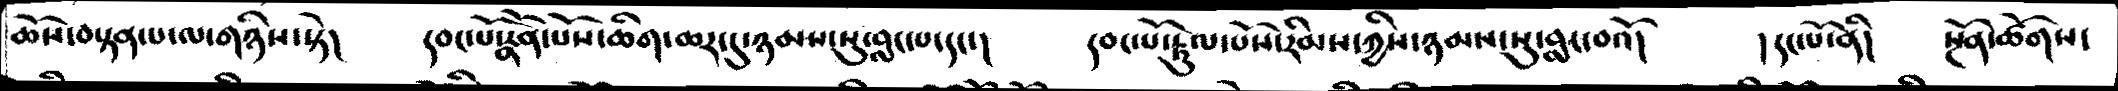ཆོས་བསྟན་པ་ལ་གཉིས་སྟེ།     དབང་པོ་རྣོན་པོས་ཆིག་ཆར་དུ་ཉམས་སུ་བླང་པདང་།     དབང་པོ་རྟུལ་པོས་རིམས་ཀྱིས་ཉམས་སུ་བླང་བའོ།      །དང་པོ་ནི།    སྔོན་ཚོགས་
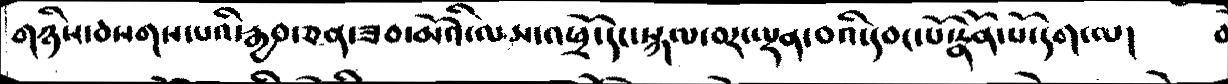གཉིས་བསགས་པའི་རྒྱབ་ཅན་ཟབ་མོའི་ལས་འཕྲོ་དང་སྐལ་བར་ལྡན་བའི་དབང་པོ་རྣོན་པོ་དག་ལ།   བ
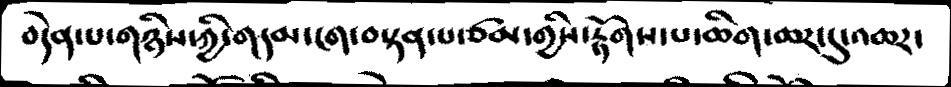བདེན་པ་གཉིས་ཀྱི་གདམ་ངག་བསྟན་པ་ཙམ་གྱིས་རྟོགས་པ་ཆིག་ཆར་དུ་འཆར་
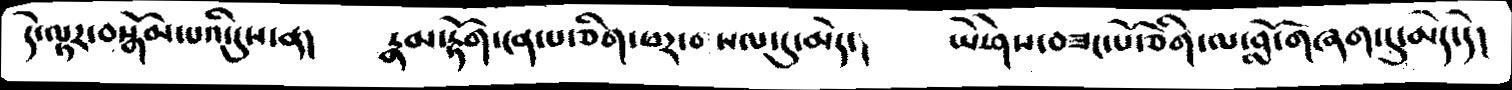དེ་ལྟར་བསྒོམ་པའི་དུས་ན།   རྣམ་རྟོག་ངན་པ་ཅིག་ཕར་བསལ་དུ་མེད་།   ཡེ་ཤེས་བཟང་པོ་ཅིག་ལ་བློ་གཞག་དུ་མེད་དེ།
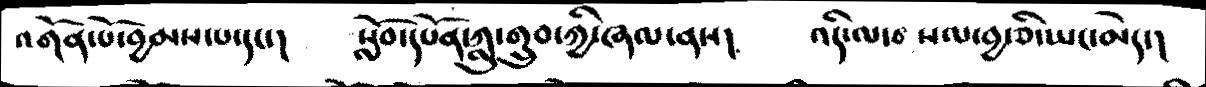འགོན་པོ་བྱམས་པ་དང་།  སློབ་དཔོན་ཀླུ་གྲུབ་ཀྱི་ཞལ་ནས།   འདི་ལ་བསལ་བྱ་ཅི་ཡང་མེད་།
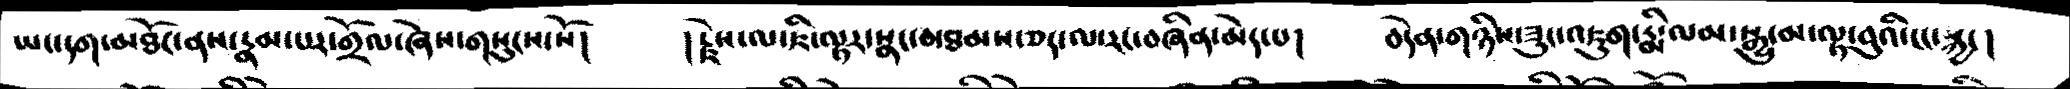ཡང་དག་མཐོང་ནས་རྣམ་པར་གྲོལ་ཞེས་གསུངས་སོ།  །རྗེས་ལ་ཇི་ལྟར་སྣང་བ་ཐམས་ཅད་ལ་རང་བཞིན་མེད་པ།  བདེན་གཉིས་ཟུང་འཇུག་རྨི་ལམ་སྒྱུ་མ་ལྟ་བུའི་ངང་སྐྱ་།
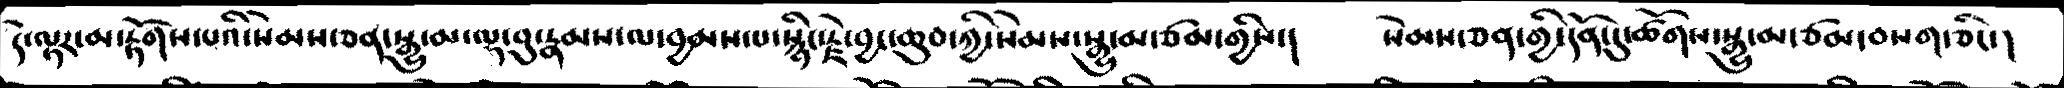དེ་ལྟར་མ་རྟོགས་པའི་སེམས་ཅན་སྒྱུ་མ་ལྟ་བུ་རྣམས་ལ་བྱམས་པ་སྙིང་རྗེ་བྱང་ཆུབ་ཀྱི་སེམས་སྒྱུ་མ་ཙམ་གྱིས་།   སེམས་ཅན་ཀྱི་དོན་དུ་ཚོགས་སྒྱུ་མ་ཙམ་བསག་ཅིང་།
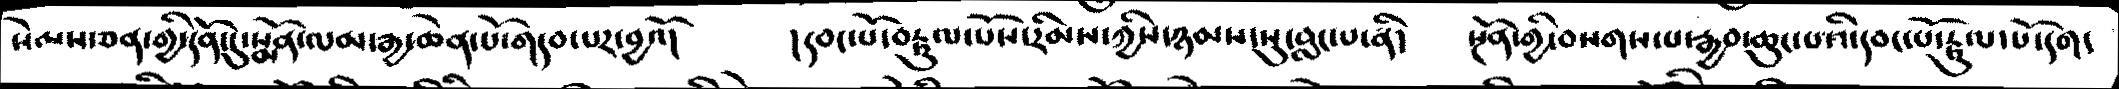སེམས་ཅན་གྱི་དོན་དུ་སྨོན་ལམ་རྒྱ་ཆེན་པོ་གདབ་པར་བྱའོ།  །དབང་པོ་བརྟུལ་པོས་རིམས་ཀྱིས་ཉམས་སུ་བླང་པ་ནི།  སྔོན་གྱི་བསགས་པ་རྒྱབ་ཆུང་པའི་དབང་པོ་རྟུལ་པོ་དག་
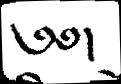༄༅།
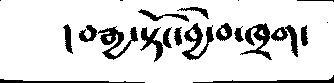།བརྒྱ་སྟོང་བྱེ་བ་ཁྲག་
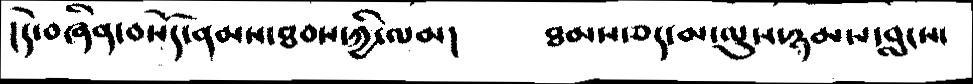།དེ་བཞིན་བསོད་ནམས་ཐབས་ཀྱི་ལམ།      ཐམས་ཅད་མ་ལུས་ཉམས་བླངས་
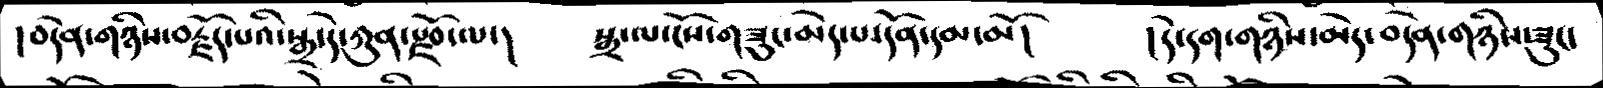།བདེན་གནིས་བརྗོད་པའི་སྒྲ་དེ་ཀུན་རྫོབ་ལ་།  སྒྲ་ལ་ངོས་གཟུང་མེད་པ་དོན་དམ་མོ།   །དེ་དག་གཉིས་མེད་བདེན་གཉིས་ཟུང་
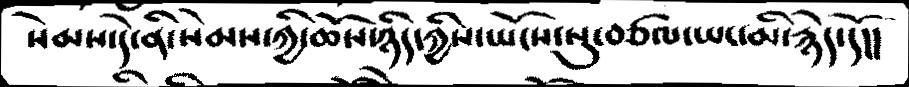སེམས་དེ་ནི་སེམས་ཀྱི་ཆོས་ཉིད་ཀྱིས་ཡོངས་སུ་བཙལ་ཡང་མི་རྙེད་དོ།།
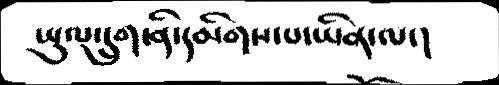ཡུལ་དྲུག་ནི་དམིགས་པ་ཡིན་ལ་།
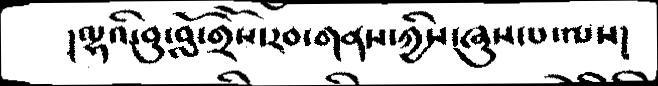།ལྷའི་བུ་བློ་གྲོས་རབ་གནས་ཀྱིས་ཞུས་པ་ལས།
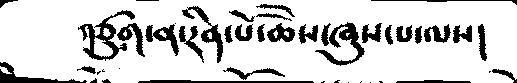གཙུག་ན་རིན་པོ་ཆེས་ཞུས་པ་ལས།
